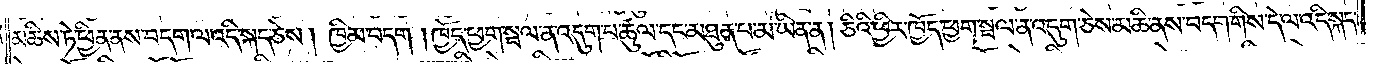མཆིས་ཏེ་ཕྱིན་ནས་བདག་ལ་འདི་སྐད་ཅེས། ཁྱིམ་བདག །ཁྱོད་ཕྱག་སྦལ་ན་འདུག་པ་ཚུལ་དང་མཐུན་པ་མ་ཡིན་ནོ། ཅིའི་ཕྱིར་ཁྱོད་ཕྱག་སྦལ་ན་འདུག་ཅེས་མཆི་ནས་བདག་གིས་དེ་ལ་འདི་སྐད་
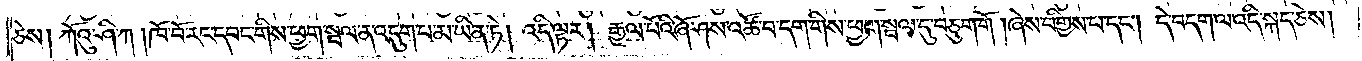ཅེས། ཀོའུ་ཤི་ཀ། ཁོ་བོ་རང་དབང་གིས་ཕྱག་སྦལ་ན་འདུག་པ་མ་ཡིན་ཏེ། འདི་ལྟར། རྒྱལ་པོའི་ཞོ་ཤས་འཚོ་བ་དག་གིས་ཕྱག་སྦལ་དུ་བཅུག་གོ །ཞེས་བགྱིས་པ་དང༌། དེ་བདག་ལ་འདི་སྐད་ཅེས།
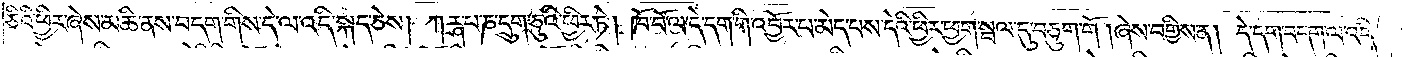ཅིའི་ཕྱིར་ཞེས་མཆི་ནས་བདག་གིས་དེ་ལ་འདི་སྐད་ཅེས། ཀཪྴ་པ་ཎ་དྲུག་ཅུའི་ཕྱིར་ཏེ། ཁོ་བོ་ལ་དེ་དག་གི་འབྱོར་པ་མེད་པས་དེའི་ཕྱིར་ཕྱག་སྦལ་དུ་བཅུག་གོ །ཞེས་བགྱིས་ན། དེ་དག་བདག་ལ་འདི་
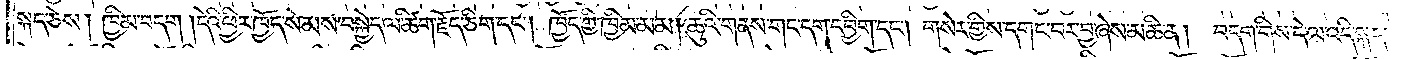སྐད་ཅེས། ཁྱིམ་བདག །དེའི་ཕྱིར་ཁྱོད་སེམས་བསྐྱེད་ལ་ཚིག་རྗོད་ཅིག་དང༌། ཁྱོད་ཀྱི་ཁྱིམ་མམ། ཆུའི་གནས་གང་དག་དབྱིག་དང༌། གསེར་གྱིས་དགང་བར་བྱ་ཞེས་མཆི་ན། བདག་གིས་དེ་ལ་འདི་སྐད་
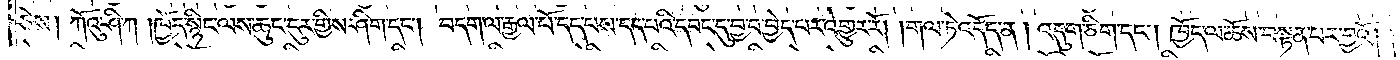ཅེས། ཀོའུ་ཤི་ཀ །ཁྱོད་སྙིང་ལས་ཆུང་ངུར་གྱིས་ཤིག་དང༌། བདག་ལ་རྒྱལ་པོ་དད་པས་དད་པའི་དབང་དུ་བྱ་བ་བྱེད་པར་འགྱུར་རོ། གལ་ཏེ་འདོད་ན། འདུག་ཅིག་དང༌། ཁྱོད་ལ་ཆོས་བསྟན་པར་བྱའོ། །
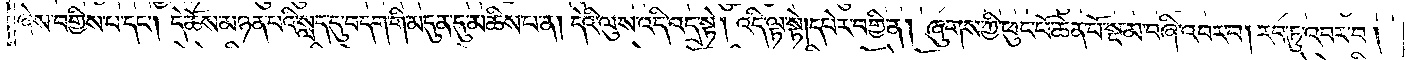ཞེས་བགྱིས་པ་དང༌། དེ་ཆོས་མཉན་པའི་སླད་དུ་བདག་གི་མདུན་དུ་མཆིས་པ་ན། དེའི་ལུས་འདི་འདྲ་སྟེ། འདི་ལྟ་སྟེ། དཔེར་བགྱི་ན། ཞུགས་ཀྱི་ཕུང་པོ་ཆེན་པོ་སྔ་མ་བཞི་འབར་བ། རབ་ཏུ་འབར་བ།
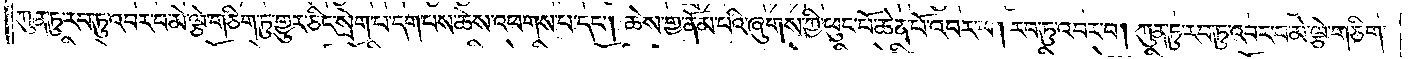ཀུན་ཏུ་རབ་ཏུ་འབར་བ་མེ་ལྕེ་གཅིག་ཏུ་གྱུར་ཅིང་སྲེག་པ་དག་པས་ཆེས་འཕགས་པ་དང༌། ཆེས་གྱ་ནོམ་པའི་ཞུགས་ཀྱི་ཕུང་པོ་ཆེན་པོ་འབར་བ། རབ་ཏུ་འབར་བ། ཀུན་ཏུ་རབ་ཏུ་འབར་བ་མེ་ལྕེ་གཅིག་
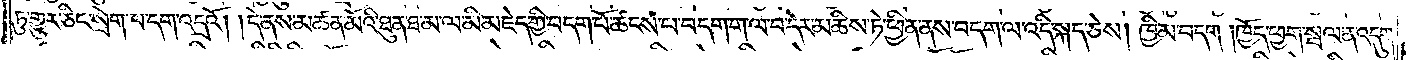ཏུ་གྱུར་ཅིང་སྲེག་པ་དག་འདྲའོ། །དེ་ནས་མཚན་མོའི་ཐུན་ཐ་མ་ལ་མི་མཇེད་ཀྱི་བདག་པོ་ཚངས་པ་བདག་ག་ལ་བ་དེར་མཆིས་ཏེ་ཕྱིན་ནས་བདག་ལ་འདི་སྐད་ཅེས། ཁྱིམ་བདག། ཁྱོད་ཕྱག་སྦལ་ན་འདུག་
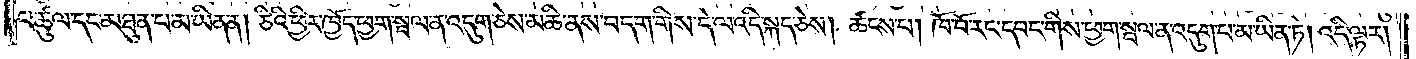པ་ཚུལ་དང་མཐུན་པ་མ་ཡིན་ན། ཅིའི་ཕྱིར་ཁྱོད་ཕྱག་སྦལ་ན་འདུག་ཅེས་མཆི་ནས་བདག་གིས་དེ་ལ་འདི་སྐད་ཅེས། ཚངས་པ། ཁོ་བོ་རང་དབང་གིས་ཕྱག་སྦལ་ན་འདུག་པ་མ་ཡིན་ཏེ། འདི་ལྟར།
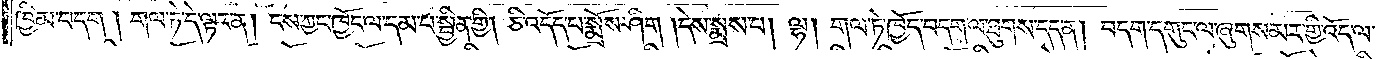ཁྱིམ་བདག །གལ་ཏེ་དེ་ལྟར་ན། ངས་ཀྱང་ཁྱོད་ལ་དམ་པ་སྦྱིན་གྱི། ཅི་འདོད་པ་སྨྲོས་ཤིག །དེས་སྨྲས་པ། ལྷ། གལ་ཏེ་ཁྱོད་བདག་ལ་ཐུགས་དད་ན། བདག་དགུང་ལ་ཞུགས་མར་གྱི་འོད་ལ་
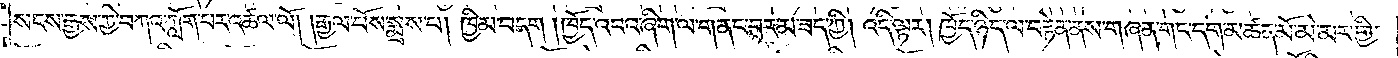སངས་རྒྱས་ཀྱི་བཀའ་ཀློག་པར་འཚལ་ལོ། །རྒྱལ་པོས་སྨྲས་པ། ཁྱིམ་བདག །ཁྱོད་འབའ་ཞིག་ལ་གནང་བར་མ་ཟད་ཀྱི། འདི་ལྟར། ཁྱོད་ཉིད་ལ་བརྟེན་ནས་གཞན་གང་དག་མཚན་མོ་མེ་མར་གྱི་
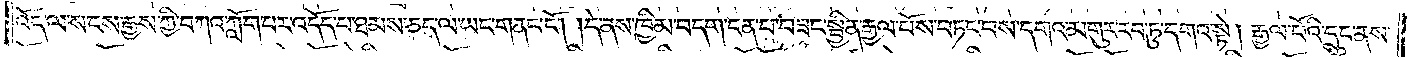འོད་ལ་སངས་རྒྱས་ཀྱི་བཀའ་ཀློག་པར་འདོད་པ་ཐམས་ཅད་ལ་ཡང་གནང་ངོ༌། །དེ་ནས་ཁྱིམ་བདག་ངན་པ་བཟང་སྦྱིན་རྒྱལ་པོས་བཏང་བས་དགའ་མགུར་རབ་ཏུ་དགའ་སྟེ། རྒྱལ་པོའི་དྲུང་ནས་
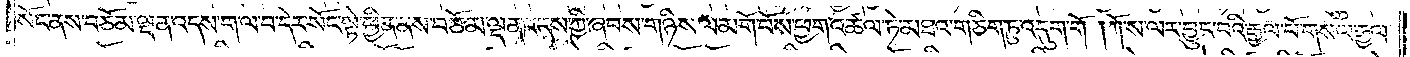སོང་ནས་བཅོམ་ལྡན་འདས་ག་ལ་བ་དེར་སོང་སྟེ་ཕྱིན་ནས་བཅོམ་ལྡན་འདས་ཀྱི་ཞབས་གཉིས་ལ་མགོ་བོས་ཕྱག་འཚལ་ཏེ་མཐའ་གཅིག་ཏུ་འདུག་གོ །ཀོ་ས་ལར་བྱུང་བའི་རྒྱལ་པོ་གསལ་རྒྱལ་
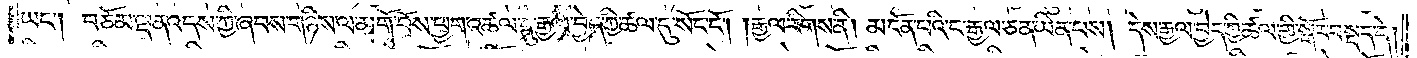ཡང༌། བཅོམ་ལྡན་འདས་ཀྱི་ཞབས་གཉིས་ལ་མགོ་བོས་ཕྱག་འཚལ་དུ་རྒྱལ་བྱེད་ཀྱི་ཚལ་དུ་སོང་ངོ༌། །རྒྱལ་རིགས་ནི། མངོན་པའི་ང་རྒྱལ་ཅན་ཡིན་པས། དེས་རྒྱལ་བྱེད་ཀྱི་ཚལ་གྱི་སྒོར་བསྡད་དེ།
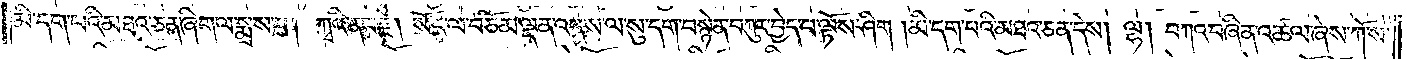མི་དག་པའི་མཐའ་ཅན་ཞིག་ལ་སྨྲས་པ། ཀྭའི་ནང་རྗེ། སོང་ལ་བཅོམ་ལྡན་འདས་ལ་སུ་དག་བསྙེན་བཀུར་བྱེད་པ་ལྟོས་ཤིག །མི་དག་པའི་མཐའ་ཅན་དེས། ལྷ། བཀའ་བཞིན་འཚལ་ཞེས་ཀོ་ས་
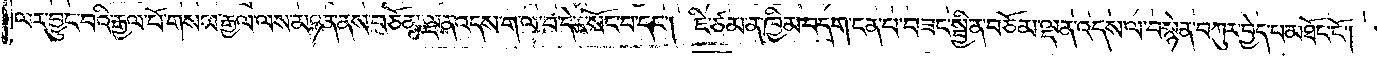ལར་བྱུང་བའི་རྒྱལ་པོ་གསལ་རྒྱལ་ལས་མཉན་ནས་བཅོམ་ལྡན་འདས་ག་ལ་བ་དེར་སོང་བ་དང༌། ཇི་ཙམ་ན་ཁྱིམ་བདག་ངན་པ་བཟང་སྦྱིན་བཅོམ་ལྡན་འདས་ལ་བསྙེན་བཀུར་བྱེད་པ་མཐོང་ངོ༌། །
